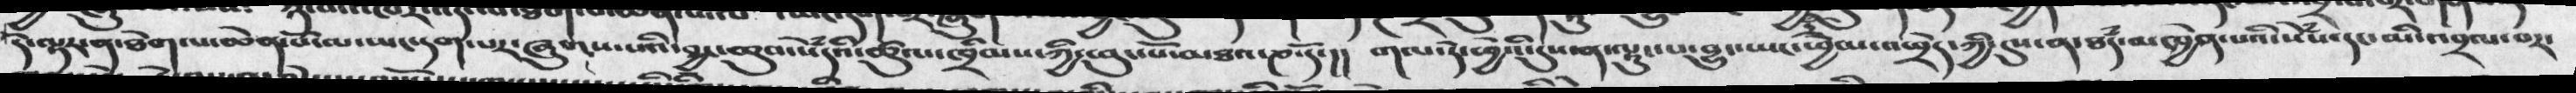དེ་ལྟར་ན་ཐེག་པ་ཆེན་པོ་ལ་ཡང་དག་པར་ཞུགས་པའི་བྱང་ཆུབ་སེཾདའི་ཚུལ་ཁྲིམས་ཀྱི་ཕུང་པོ་མཐའ་ཎ་དོ་།།   གལ་དེ་ཕྱེའི་དུས་ན་ལྷུང་པ་བྱུང་ཡང་ཕྱེམ་འཕྲེད་ཀྱི་དུས་ན་ཐཾད་མཁྱེན་པའི་སེཾས་དང་མི་འབྲལ་བར་
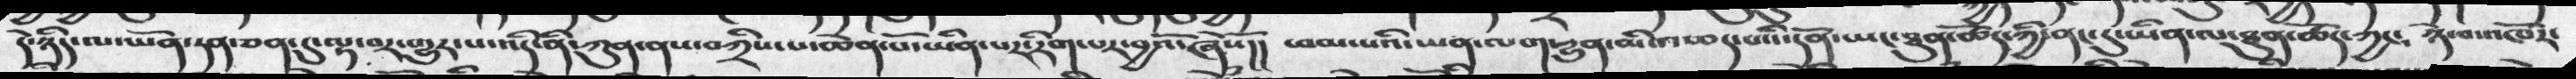དེ་ཉིད་ལ་ཡོན་ཏན་ཅན་དུ་ལྟ་བར་གྱུར་པ་འདི་ནི་ཀུན་ནས་བཀྲིས་པ་ཆེན་པོ་ཡིན་པར་རིིག་པར་བྱའོ་ཞེསོ།།  ཕམ་པའི་ཡན་ལག་རྱུན་མི་འཆད་པའི་དོན་ཡང་ཐུན་ཚོད་ཀྱི་ནང་དུ་ཡིན་ལ་ཐུན་ཚོད་ཀྱང༴  ཉེ་བ་འཁོར་
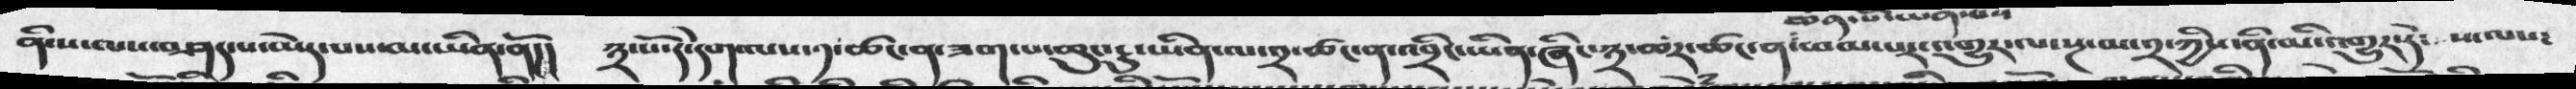ནི་ས་ལས་བཤད་པ་མེད་པས་མ་ཡིན་ནོ།།    ༣་པོ་དེ་དག་ལས་༡་ཚང་ན་ཟག་པ་ཆུང་ངུ་ཡིན་ལ་༢་ཚང་ན་འབྲིང་ཡིན་ཞིང་༣་ཆར་ཚང་ན་ཆེན་པོ་ཡིན་པས་ཕམ་པར་འགྱུར་ལ་སྔ་མ་༢་ཀྱིས་ནི་མི་འགྱུར་ཏེ་    ས་ལས་
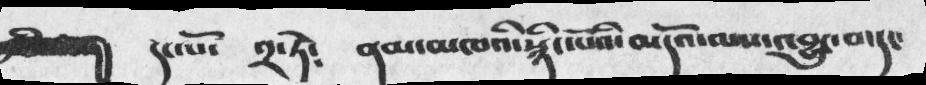དང་པོ་   ༢་ཏེ༴   ནམ་མཁའི་སྙིང་པོའི་མདོའ་ལས་འབྱུང་བ་དང་
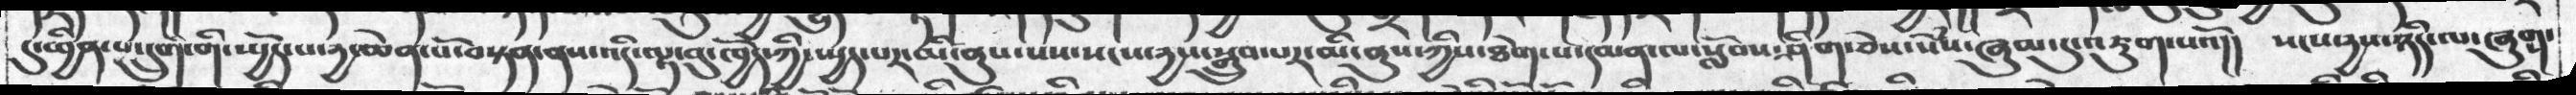དུ་ཕྱིན་པ་དྲུག་གི་ཡྱོད་པ་རྱ་ཆེན་པོ་བསྟན་ནས་འདི་ལྟ་བུ་ཁྱོད་ཀྱི་ཡྱད་པར་མི་ནུས་པས་སངས་དྱས་སྒྲུབ་པར་མི་ནུས་ཀྱིས་ཐེག་པ་དམན་ལ་སློབས་ཤེག་ཅེས་སེཾས་ཞུམ་དུ་འཇུག་པའོ།།  སངས་རྱས་ཉིད་ལ་ཞུགས་
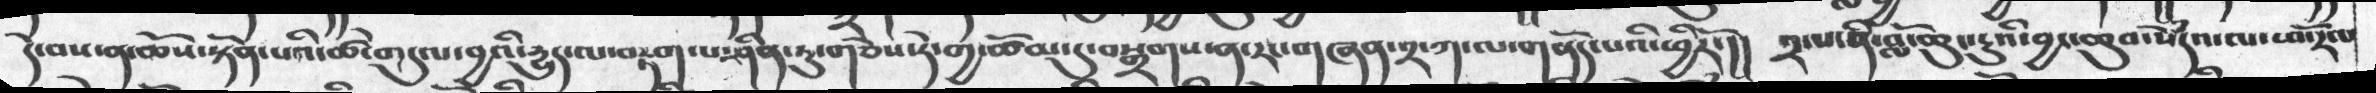དེ་བས་ན་ཆོས་སྟོན་པའི་ཚེ་གདུལ་བྱའི་རྱུད་ལ་བརྟག་པ་ཤིན་ཏུ་གཅེས་ཏེ་གྱ་ཚོམ་དུ་བསྒྲགས་ན་རང་གཞན་༢་ཀ་ལ་གནོད་པའི་ཕྱིརོ་།།  ༢་པ་ནི་བློ་ཆུང་རྱུའི་བྱང་ཆུབ་སེཾདའ་ལ་ཕ་རོལ་
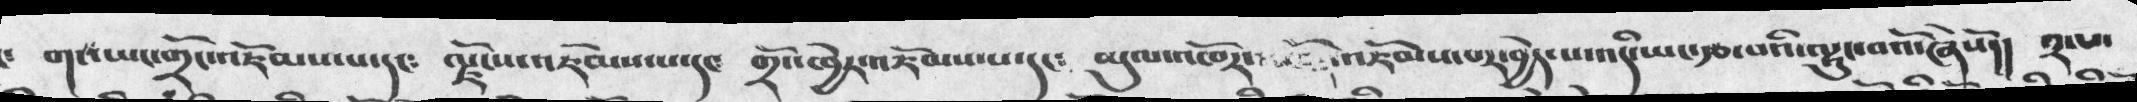གང་ཡང་གྲོང་འཇོམས་པ་དང༴  ལྗོངས་འཇོམས་པ་དང༴  གྲོང་ཁྱེར་འཇོམས་པ་དང༴   མུལ་འཁོར་འཁོར་འཇོམས་པར་བྱེད་པ་འདི་ཡང་རྩ་བའི་ལྷུང་བའོ་ཞེསོ།།  ༢་པ་
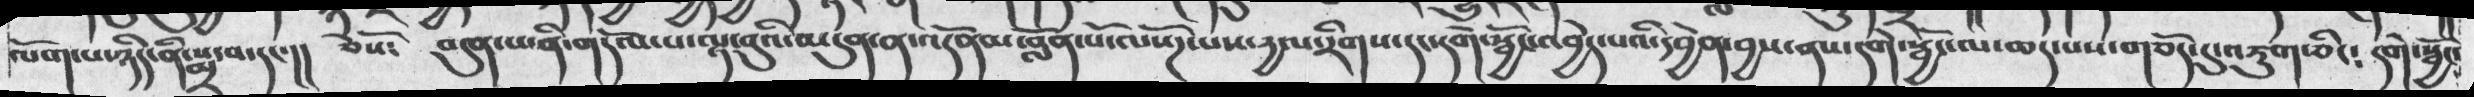ལོག་པ་ཉིད་ནི་སྨྲ་བ་དང་།།  ཅེསོ་  བདུན་པ་ནི་གདོལ་པ་ལྟ་བུའི་མདུན་ན་འདོནམ་བློན་པོ་ལསོཌ་པས་རྱལ་རིགས་དང་དགེ་སྦྱོང་འབྱེད་པའི་དབྱེན་བྱས་ནས་དགེ་སྦྱོང་ལ་ཆད་པས་གཅོད་དུ་འཇུག་ཅིང༴   དགེ་སྦྱོང་
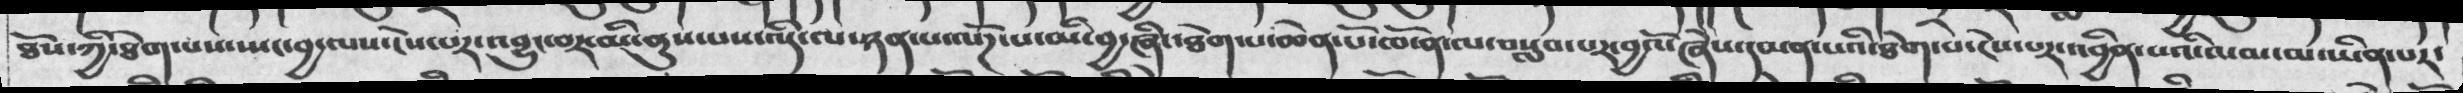ཐོས་ཀྱི་ཐེག་པས་སྤང་བྱ་ལས་ངེས་པར་འབྱུང་བར་མི་ནུས་པས་འདི་ལ་ཉན་པ་ལོཌ་པ་མི་བྱ་ཞིང་ཐེག་པ་ཆེན་པོ་ཁོ་ན་ལ་བསླབ་པར་བྱའོ་ཞེས་དམན་པའི་ཐེག་པ་ངེས་པར་འབྱིན་པའི་ལམ་མ་ཡིན་པར་
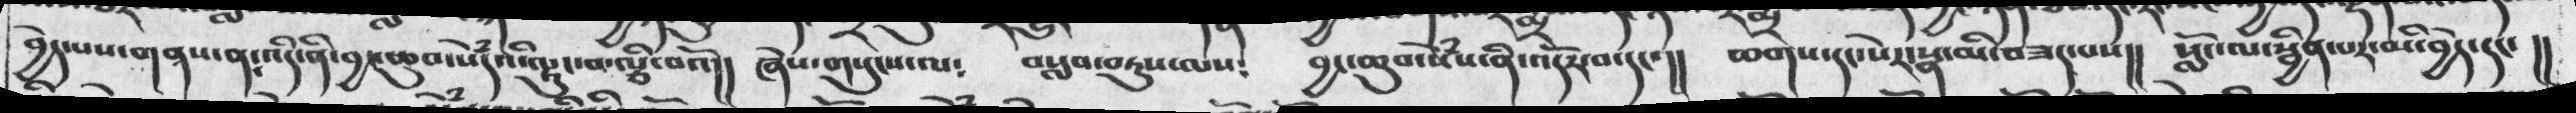བྱེད་པས་གནས་ན༴འདི་ནི་བྱང་ཆུབ་སེཾདའི་ལྟུང་བ་ལྕི་བའོ།།   ཞེས་གསུངས་ལ༴   བསླབ་བཏུས་ལས༴    བྱང་ཆུབ་སེཾས་ནི་འདོར་བ་དང་།།   ཆགས་དང་སེར་སྣ་མི་བཟད་པས།།   སློང་ལ་སྦྱིན་པར་མི་བྱེད་དང་
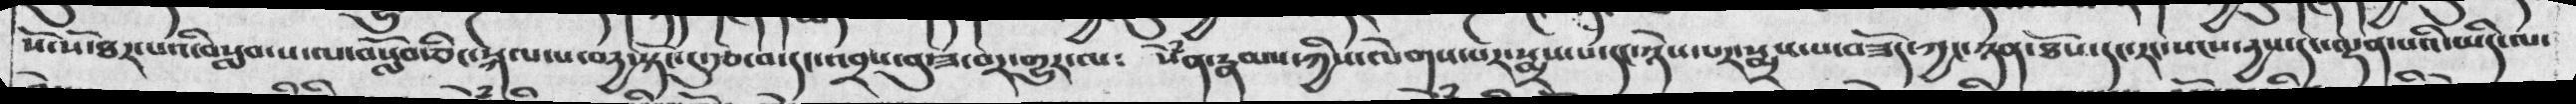སོ་སོ་ཐར་པའི་བསླབ་པ་ལ་བསློབ་ཅིང་སྐལ་པ་བདྱ་སྟོང་དུ་རྩ་བ་དང་འབྲས་བུ་ཟ་བར་གྱུར་ལ༴   སེཾན་རྣམས་ཀྱིས་ལེགས་པར་སྨྲས་པ་དང་ཉེས་པར་སྨྲས་པ་བཟོད་ཀྱང་ཉན་ཐོས་དང་རང་སངས་དྱས་དང་ལྡན་པའི་ཡིད་ལ་
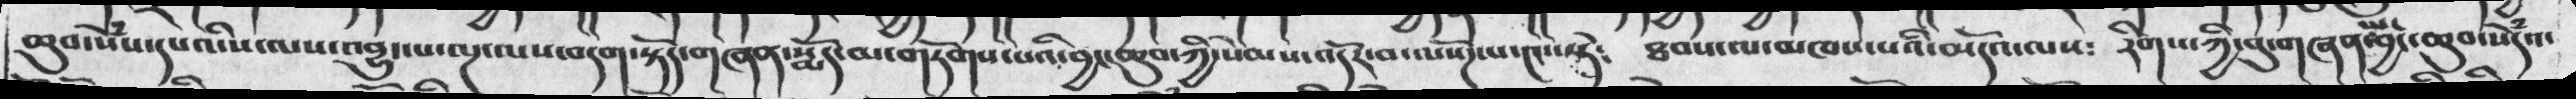ཆུབ་སེཾས་དཔའི་ས་ལས་འབྱུང་པ་ལྔ་ལས་བདག་སྟོད་གཞན་སྨོད་མ་གཏོགས་པའི་བྱང་ཆུབ་ཀྱི་སེམས་འདོར་བ་ལསོཌ་པ་༤་་སྟེ༴ ཐབས་ལ་མཁས་པའི་མདོ་ལས༴   རིགས་ཀྱི་བུ་གཞན་ལ་བྱང་ཆུབ་སེཾདའ་
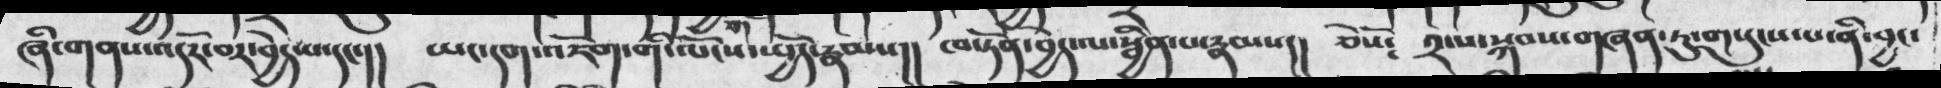ཞི་གནས་འདོར་བར་བྱེད་པ་དང་།།  ཡང་དག་འཇོག་གི་ལོངས་སྤྱོད་རྣམས།།   ཁ་ཏོན་བྱེད་ལ་སྦྱིན་པ་རྣམས།།   ཅེསོ༴   ༢་པ་སྐབས་གཞན་ཏུ་གསུངས་པ་ན་བྱང་
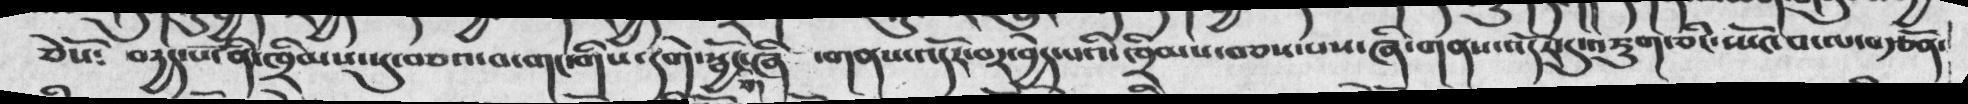ཅེསོ༴  བདྱད་པོ་ནི་ཁྲིམས་སུ་བཅའ་བ་གང་གིས་དགེ་སྦྱོང་གཞི  ་གནས་འདོར་བར་བྱེད་པའི་ཁྲིམས་བཅས་པས་ཞི་གནས་འདོར་དུས་འཇུག་ཅིང་སྤོང་བ་ལ་བརྩོན་
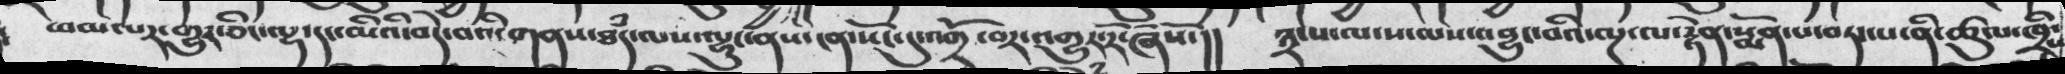ཕམ་པར་གྱུར་ཅིང་ལྷ་དང་མིའི་བདེ་བའི་གནས་ཐཾད་ལས་ལྷུང་ནས་ངན་སོང་དུ་འགྲོ་བར་འགྱུར་རོ་ཞེསོ་།།  ༣་པ་ལ་ས་ལས་འབྱུང་བའི་ལྔ་ལ་རྟེན་སྨོན་པ་བར་པ་ནི་ཚུལ་ཁྲིམས་
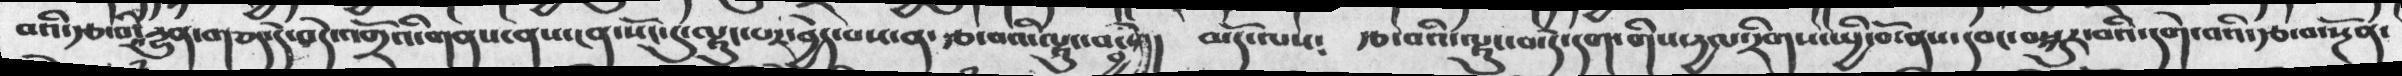བའི་རྩ་བའི་རྒྱུན་གཅད་དེ་བདེ་འགྲོའོ་གནས་ནས་ངན་སོང་དུ་ལྟུང་པར་བྱེད་པས་ན་རྩ་བའི་ལྟུང་བ་བྱ་སྟེ།།  རྩ་བའི་ལྟུང་བ་དེ་དག་གིས་དྱལ་རིགས་སྤྱི་བོ་ནས་དབང་བསྐུར་བའི་དགེ་བའི་རྩ་བ་སྔོན་
